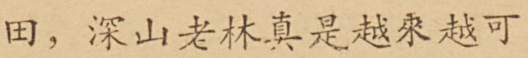田，深山老林真是越來越可
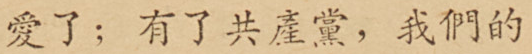愛了；有了共產黨我們的
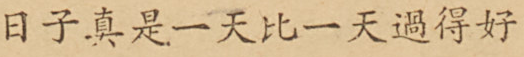日子真是一天比一天過得好
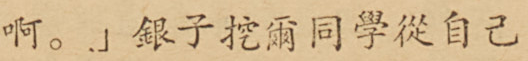啊。」銀子挖爾同學從自己
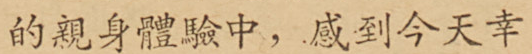的親身體驗中，感到今天幸
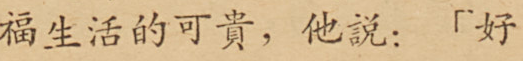福生活的可貴，他說：「好
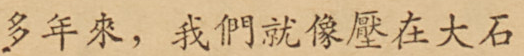多年來，我們就像壓在大石
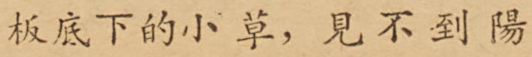板底下的小草，見不到陽
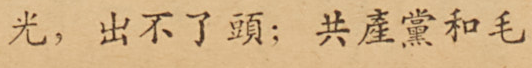光，出不了頭；共產黨和毛
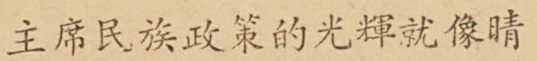主席民族政策的光輝就像晴
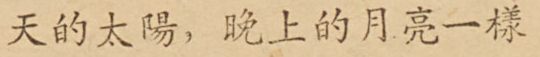天的太陽，晚上的月亮一樣
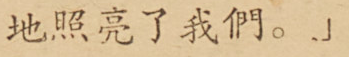地照亮了我們。」
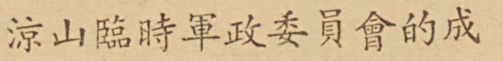涼山臨時軍政委員會的成
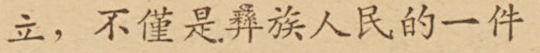立，不僅是彝族人民的一件
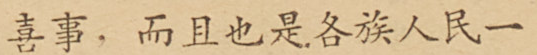喜事，而且也是各族人民一
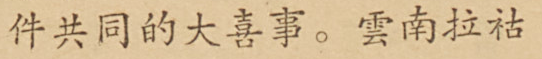件共同的大喜事。雲南拉祜
